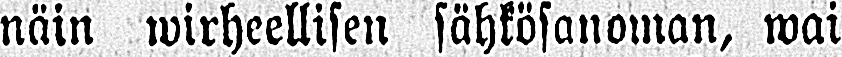näin wirheellisen sähkösanoman, wai
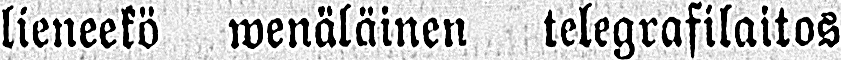lieneekö wenäläinen telegrafilaitos
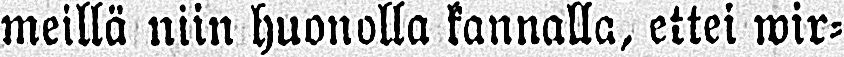meillä niin huonolla kannalla, ettei wir-
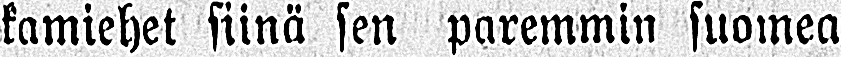kamiehet siinä sen paremmin suomea
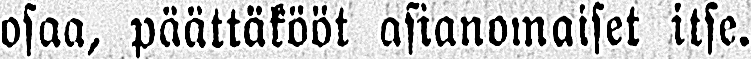osaa, päättäkööt asianomaiset itse.
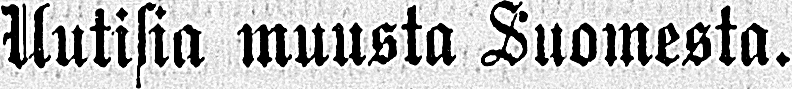Uutisia muusta Suomesta.
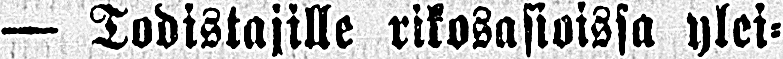— Todistajille rikosasioissa ylei-
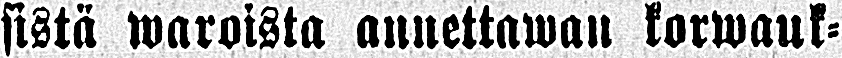sistä waroista annettawan korwauk-
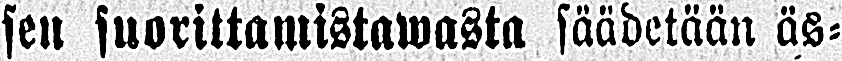sen suorittamistawasta säädetään äs-
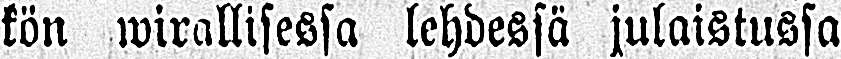kön wirallisesa lehdessä julaistussa
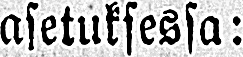asetuksessa:
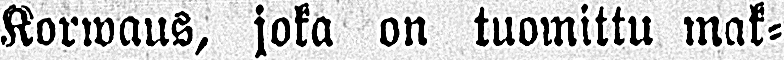Korwaus, joka on tuomittu mak-
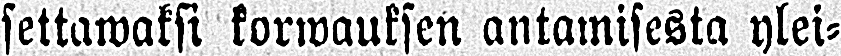settawaksi korwauksen antamisesta ylei-
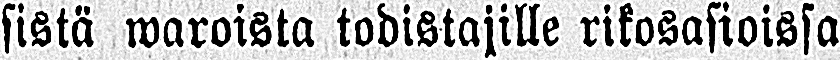sistä waroista todistajille rikosasioissa
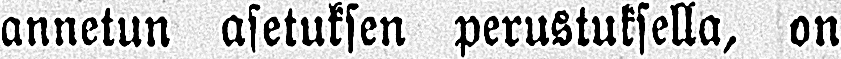annetun asetuksen perustuksella, on
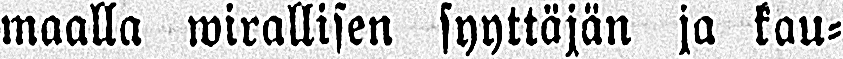maalla wirallisen syyttäjän ja kau-
